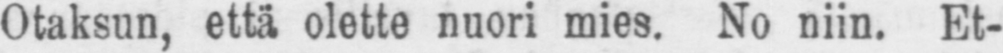Otaksun, että olette nuori mies. No niin. Et-
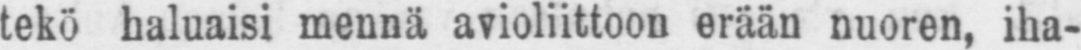tekö haluaisi mennä avioliittoon erään nuoren, iha-
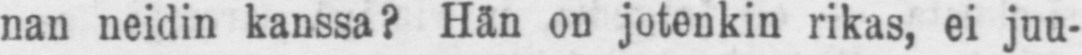nan neidin kanssa? Hän on jotenkin rikas, ei juu-
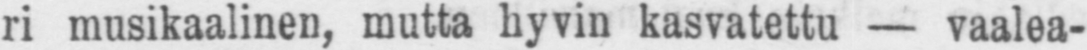ri musikaalinen, mutta hyvin kasvatettu — vaalea-
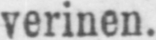verinen.
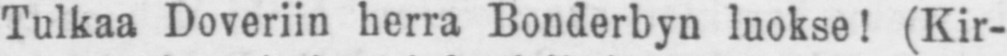Tulkaa Doveriin herra Bonderdyn luokse! (Kir-
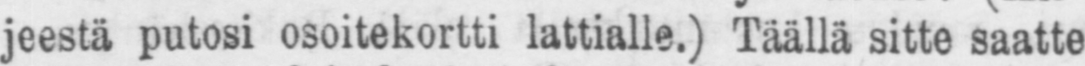jeestä putosi osoitekortti lattialle.) Täällä sitte saatte
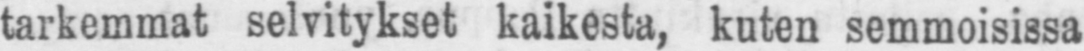tarkemmat selvitykset kaikesta, kuten semmoisissa
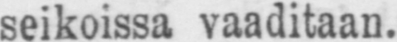seikoissa vaaditaan.
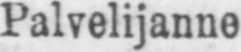Palvelijanne
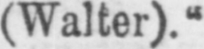Bonderby (Walter)."
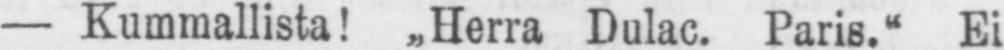— Kummallista! ˶Herra Dulac. Paris." Ei
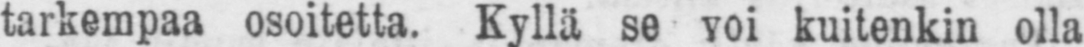tarkempaa osoitetta. Kyllä se voi kuitenkin olla
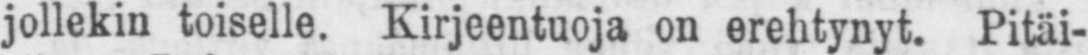jollekin toiselle. Kirjeentuoja on erehtynty. Pitäi-
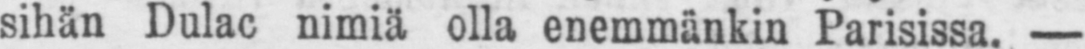sihän Dulac nimiä olla enemmänkin Parisissa.—
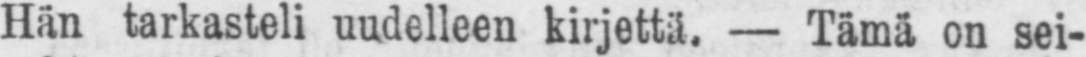Hän tarkasteli uudelleen kirjettä. — Tämä on sei-
